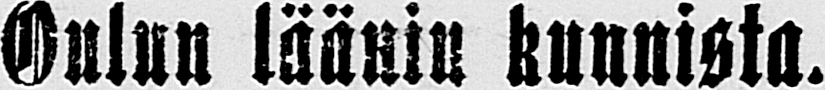Oulun läänin kunnista.
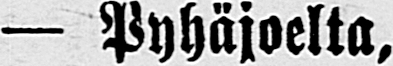— Pyhäjoelta, 5/590.
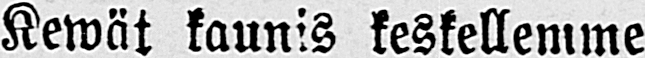Kewät kaunis keskellemme
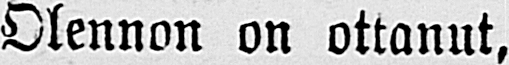Olennon on ottanut,
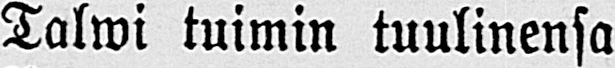Talwi tuimin tuulinensa
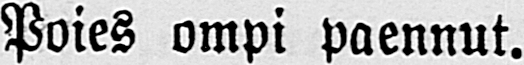Poies ompi paennut.
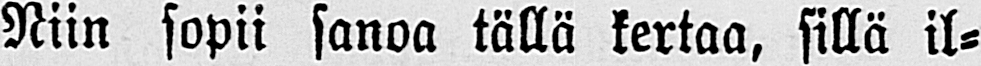Niin sopii sanoa tällä kertaa, sillä il-
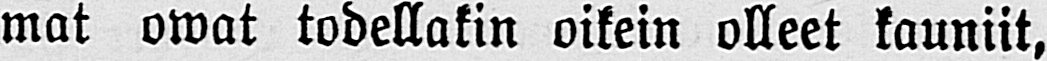mat owat todellakin oikein olleet kauniit,
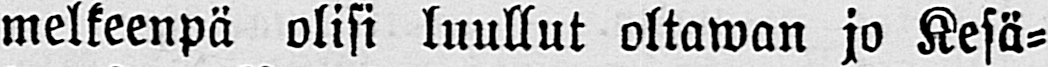melkeenpä olisi luullut ottawan jo Kesä-
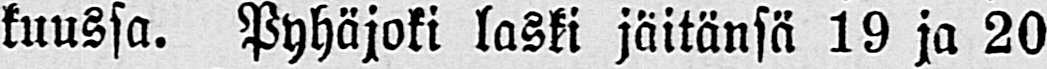kuussa. Pyhäjoki laski jäitänsä 19 ja 20
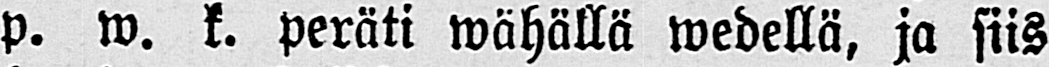p. w. k. peräti wähällä wedellä, ja siis
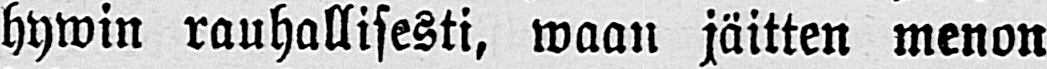hywin rauhallisesti, waan jäitten menon
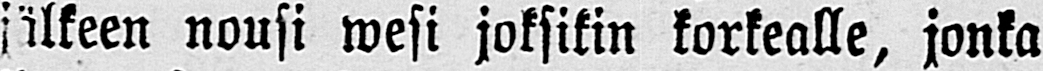jälkeen nousi wesi joksikin korkealle, jonka
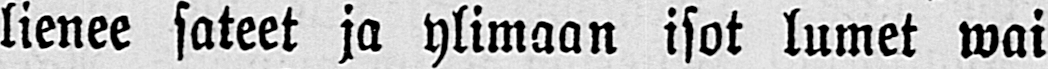lienee sateet ja ylimaan isot lumet wai
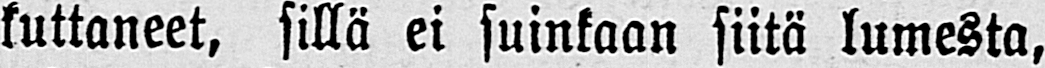kuttaneet, sillä ei suinkaan siitä lumesta,
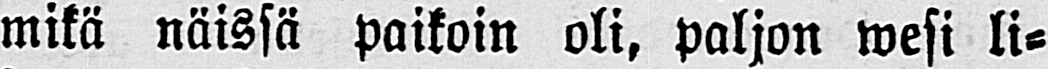mikä näissä paikoin oli, paljon wesi li-
